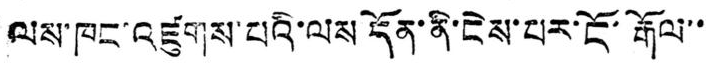ལས་ཁང་འཛུགས་པའི་ལས དོན་ནི་ངེས་པར་ངོ་རྒོལ་་
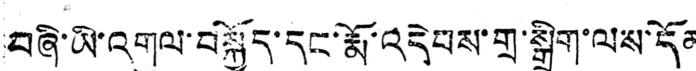བཞི་ཡི་འགུལ་བསྐྱོད་དང་རྨོ་འདེབས་གྲ་སྒྲིག་ལས་དོན
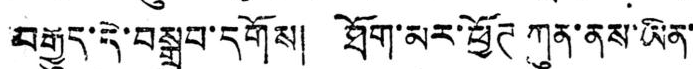བརྒྱུད་དེ་བསྒྲུབ་དགོས། ཐོག་མར་ཕྱོཊ ཀུན་ནས་ཡིན་
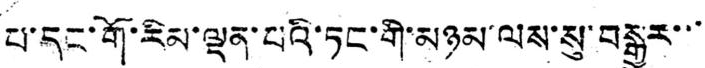པ་དང་གོ་རིམ་ལྡན་པའི་ཏང་གི་མཉམ་ལས་སུ་བསྒྱུར་་་
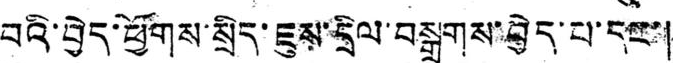བའི་བྱེད་ཕྱོགས་སྲིད་ཇུས་དྲིལ་བསྒྲགས་བྱེད་པ་དང་།
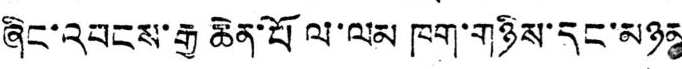ཞིང་འབངས་རྒྱ ཆེན་པོ ལ་ལམ ཁག་གཉིས་དང་མཉམ་
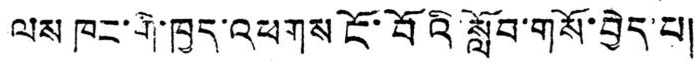ལས ཁང་གི་ཁྱད་འཕགས ངོ་བོའི་སློབ་གསོ་བྱེད་པ།
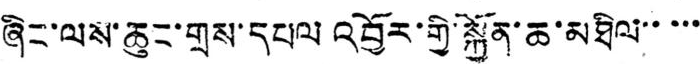ཞིང་ལས་ཆུང་གྲས་དཔལ འབྱོར་གྱི་སྐྱོན་ཆ་མཐིལ་་་་་
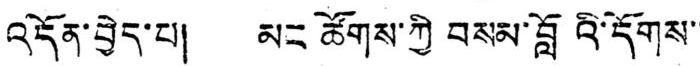འདོན་བྱེད་པ། མང ཚོགས་ཀྱི བསམ་བློའི་དོགས་་
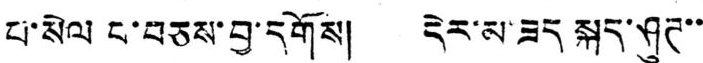པ་སེལ བ་བཅས་བྱ་དགོས། དེར་མ་ཟད སྐད་ཤུཊ་་
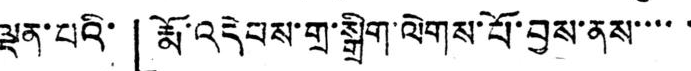ལྡན་པའི་「རྨོ་འདེབས་གྲ་སྒྲིག་ལེགས་པོ་བྱས་ནས་་་་་
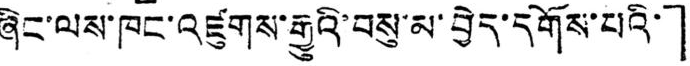ཞིང་ལས་ཁང་འཛུགས་རྒྱུའི་བསུ་མ་བྱེད་དགོས་པའི་」
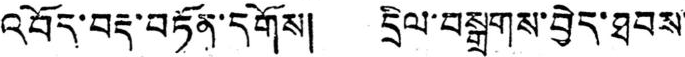འབོད་བརྡ་བཏོན་དགོས། དྲིལ་བསྒྲགས་བྱེད་ཐབས་་
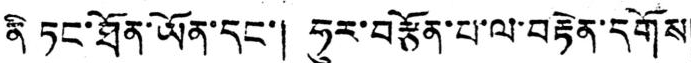ནི ཏང་ཐོན་ཡོན་དང་། ཧུར་བརྩོན་པ་ལ་བརྟེན་དགོས།
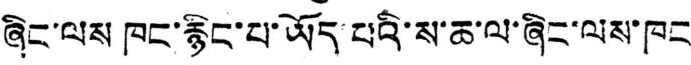ཞིང་ལས ཁང་རྙིང་པ་ཡོད་པའི་ས་ཆ་ལ་ཞིང་ལས་ཁང་
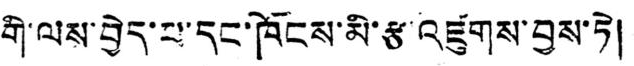གི་ལས་བྱེད་པ་དང་ཁོངས་མི་རྩ་འཛུགས་བྱས་ཏེ།
